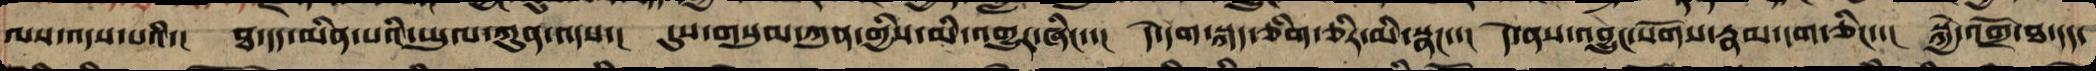ལས་འདས་པའི་། ཐ་དད་མིན་པའི་ཡུལ་ཀུན་འདས་། དུས་གསུམ་ཀུན་གྱིས་མི་འགྱུར་ཞིང་་། དེ་དག་སྐད་ཅིག་ཅིར་མི་སྣང་་། དེ་ལ་འབྱུང་སོགས་རྣམ་དག་ཅིང་་། སྐྱེ་འགྲོ་ཐ་དད་
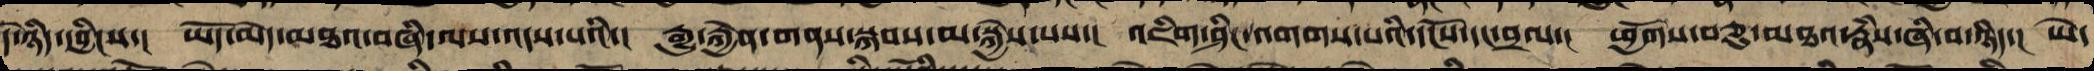དེ་ཉིད་དབྱིངས་། ཡོད་མེད་མཐའ་བཞི་ལས་འདས་པའི་། རྒྱུ་རྐྱེན་གནས་སྐབས་མ་སྐྱེས་པས་། འཇིག་ཤིང་འགག་པའི་དངོས་དང་བྲལ་། ཕྱོགས་བཅུ་མཐའ་རྣཾས་ཞི་བ་ཉིད་། ཡེ་
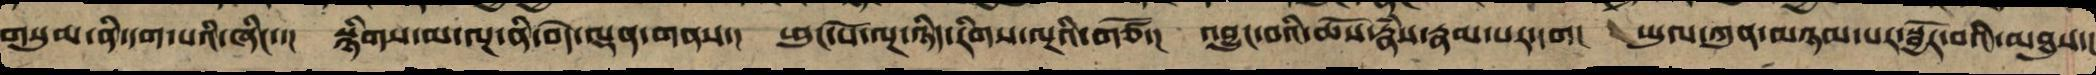གསུམ་ནི་དག་པའི་ཞིང་་། སྙིགས་མ་ལྔ་ནི་བདེ་ལྡན་གནས་། ཕུང་པོ་ལྔ་ཉིད་རིགས་ལྔའི་གཙོ་། འབྱུང་བའི་ཆོས་རྣཾས་རྣམ་པར་དག། ཡུལ་ཀུན་མཉམ་པར་སྦྱོར་བའི་མཐུས་།
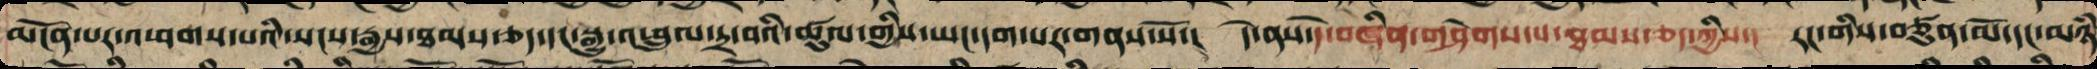མངོན་པར་འཕགས་པའི་སངས་རྒྱས་ཐམས་ཅད་དང་སྒྱུ་འཕྲུལ་དྲ་བའི་ཚུལ་གྱིས་ཡང་དག་པར་གནས་སོ་། དེ་ནས་དེ་བཞིན་གཤེགས་པ་ཐམས་ཅད་ཀྱིས་། རང་གི་བཙུན་མོ་དང་མཉཾ
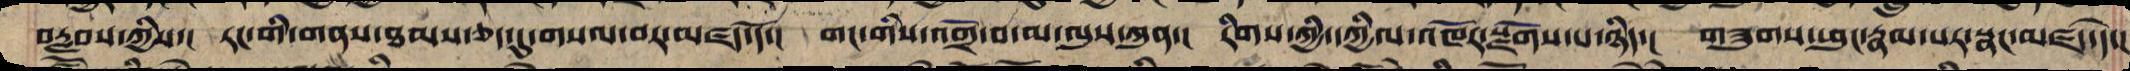བརླབས་ཀྱིས་། རང་གི་གནས་ཐམས་ཅད་དུ་གསལ་བར་མཛད་དོ་། གང་གི་འགྲོ་བ་མ་ལུས་ཀུན་། རིགས་ཀྱི་དཀྱིལ་འཁོར་སྫོགས་པ་ཉིད་། གཟུགས་ཕུང་རྣམ་པར་སྣང་མཛད་དེ་།
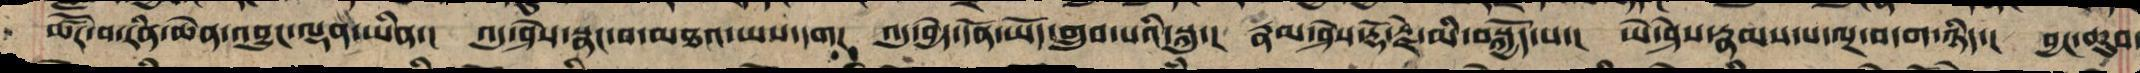ཚོར་བ་རིན་ཆེན་འབྱུང་ལྡན་ཡིན་། འདུ་ཤེས་སྣང་བ་མཐའ་ཡས་དག། འདུ་བྱེད་དོན་ཡོད་གྲུབ་པའི་སྐུ་། རྣམ་ཤེས་རྡོ་རྗེ་མི་བསྐྱོད་པ་། ཡེ་ཤེས་རྣམ་པ་ལྔ་བདག་ཉིད་། བྱང་ཆུབ་
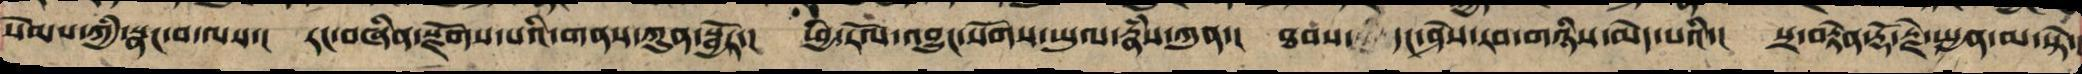སེམས་ཀྱི་སྣང་བ་ལས་། རང་བཞིན་སྫོགས་པས་གནས་ཀུན་སྦྱོར་། ཕྱི་རོལ་འབྱུང་སོགས་ཡུལ་རྣཾས་ཀུན་། ཐབས་དང་ཤེས་རབ་གཉིས་མེད་པའི་། སྲ་བརྟེན་རྡོ་རྗེ་སྤྱན་མ་སྟེ་།
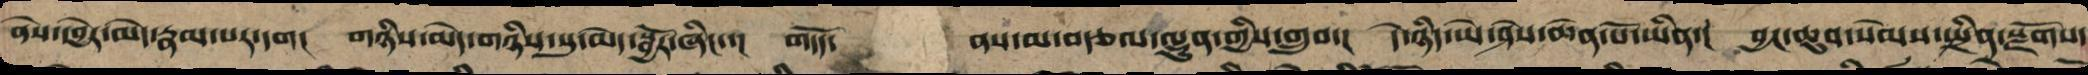ནེས་དབྱེར་མེད་རྣམ་པར་དག། གཉིས་མེད་གཉིས་སུ་མེད་སྦྱོར་ཞིང་་། གདོད་     ནས་མ་བརྩལ་ལྷུན་གྱིས་གྲུབ་། དེ་ཉིད་ཡེ་ཤེས་ཆེན་པོ་ཡིན་། བྱང་ཆུབ་སེམས་སྤྲིན་སྫོགས་
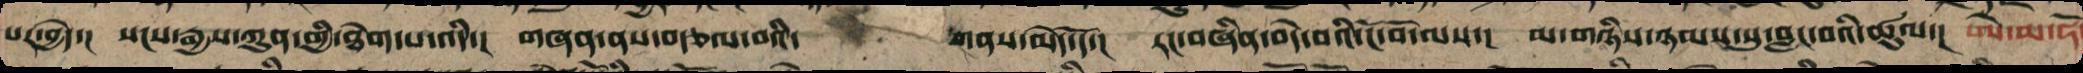པར་བྱེད་། སངས་རྒྱས་ཀུན་གྱི་ཐེག་པ་འདི་། གཞན་ནས་བརྩལ་བའི་   གནས་མེད་དོ་། རང་བཞིན་བདེ་བའི་ངོ་བོ་ལས་། མ་གཉིས་ཉམས་སུ་མྱོང་བའི་ཚུལ་། ཨེ་མ་ཧོ
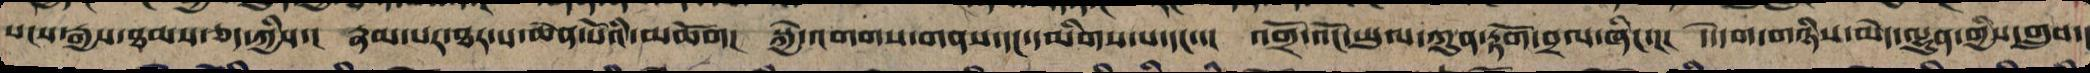སངས་རྒྱས་ཐམས་ཅད་ཀྱི་། རྣམ་པར་ཐར་པ་ཆེན་པོའི་མཆོག། སྐྱེ་འགགས་གནས་དང་དམིགས་པ་དང་་། འགྲོ་འོང་ཡུལ་ཀུན་རྟོག་བྲལ་ཞིང་་། དེ་དག་གཉིས་མེད་ལྷུན་གྱིས་གྲུབ་།
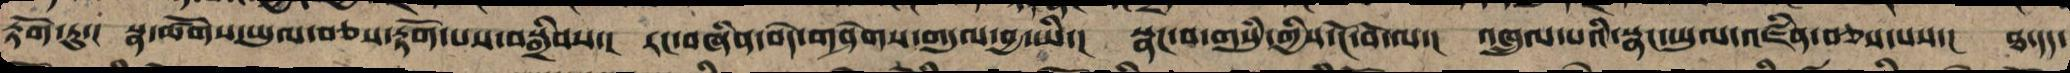རྟོག་ཏུ་། སྣ་ཚོགས་ཡུལ་བཅས་རྟོག་པས་བསྒྲིབས་། རང་བཞིན་བདེ་གཤེགས་གདུལ་བྱ་ཡི་། སྣང་བ་གསུཾ་གྱི་ངོ་བོ་ལ་། འཁྲུལ་པའི་སྣང་ཡུལ་འཛིན་བཅས་པས་། ཐ་དད་
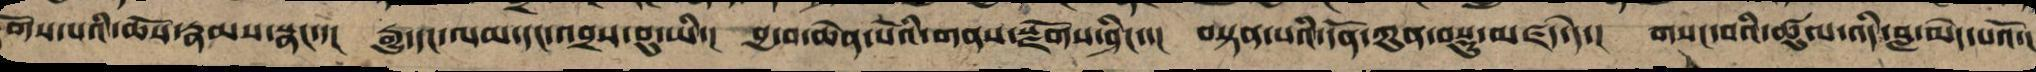གོས་པའི་ཆོས་རྣམས་སྣང་་། རྒྱུ་དང་ལམ་དང་འབྲས་བུ་ཡི་། བྱ་བ་ཆེན་པོའི་གནས་སྫོགས་ཤིང་་། བསྟན་པའི་དོན་ཀུན་བསྡུ་མཛད་དེ་། གསང་བའི་ཚུལ་འདི་བླ་མེད་པའོ་།
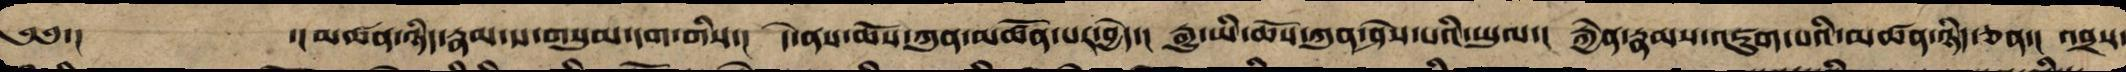༄༅་།     ་།མཚན་ཉིད་རྣམ་པ་གསུམ་དག་གིས་། དེ་ནས་ཆོས་ཀུན་མཚོན་པར་བྱེད་། རྒྱུ་ཡི་ཆོས་ཀུན་ཤེས་པའི་ཡུལ་། རྐྱེན་རྣམས་འཇུག་པའི་མཚན་ཉིད་ཅན་། འབྲས་
